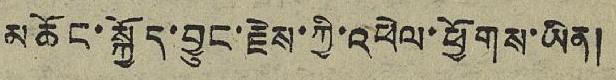མཆོང་སྐྱོད་བྱུང་རྗེས་ཀྱི་འཕེལ་ཕྱོགས་ཡིན།
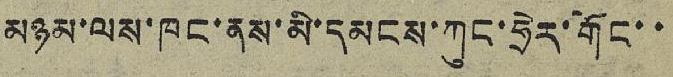མཉམ་ལས་ཁང་ནས་མི་དམངས་ཀུང་ཧྲེར་གོང་་
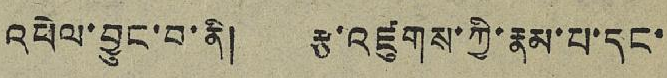འཕེལ་བྱུང་བ་ནི། རྩ་འཛུགས་ཀྱི་རྣམ་པ་དང་
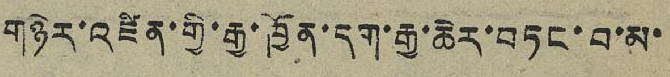གཉེར་འཛིན་གྱི་རྒྱ་ཁྱོན་དག་རྒྱ་ཆེར་བཏང་བ་མ་
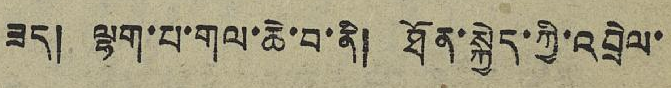ཟད། ལྷག་པ་གལ་ཆེ་བ་ནི། ཐོན་སྐྱེད་ཀྱི་འབྲེལ་
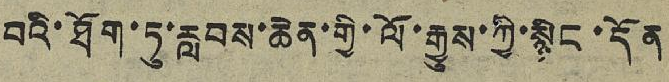བའི་ཐོག་ཏུ་རླབས་ཆེན་གྱི་ལོ་རྒྱུས་ཀྱི་སྙིང་དོན
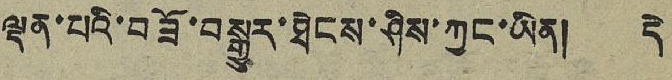ལྡན་པའི་བཟོ་བསྒྱུར་ཐེངས་ཤིས་ཀྱང་ཡིན། དེ
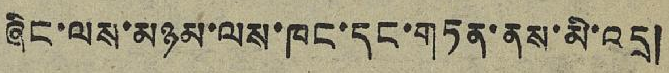ཞིང་ལས་མཉམ་ལས་ཁང་དང་གཏན་ནས་མི་འདྲ།
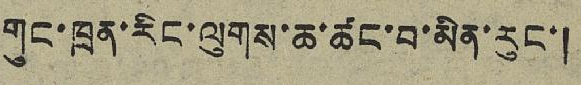གུང་ཁྲན་རིང་ལུགས་ཆ་ཚང་བ་མིན་རུང་།
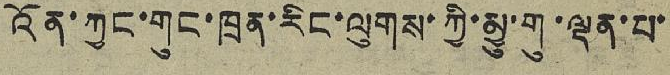འོན་ཀྱང་གུང་ཁྲན་རིང་ལུགས་ཀྱི་མྱུ་གུ་ལྡན་པ་
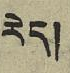རེད།
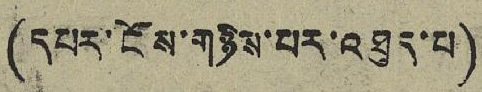(དཔར་ངོས་གཉིས་པར་འཐུད་པ)
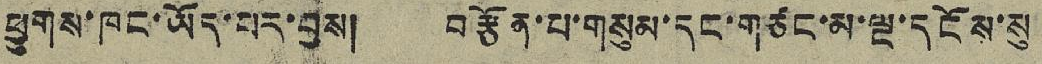ཕྱུགས་ཁང་ཡོད་པར་བྱས། བརྩོན་པ་གསུམ་དང་གཙང་མ་ལྔ་དངོས་སུ
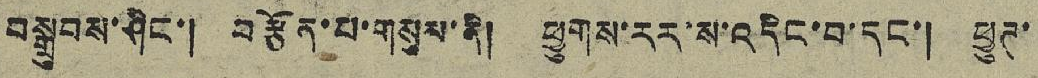བསྒྲུབས་ཤིང་། བརྩོན་པ་གསུམ་ནི། ཕྱུགས་རར་ས་འདིང་བ་དང་། ཕྱུཊ་
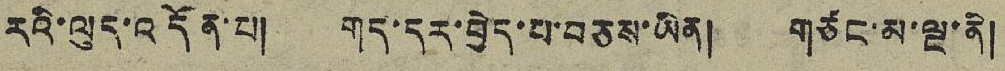རའི་ལུད་འདོན་པ། གད་དར་བྱེད་པ་བཅས་ཡིན། གཙང་མ་ལྔ་ནི།
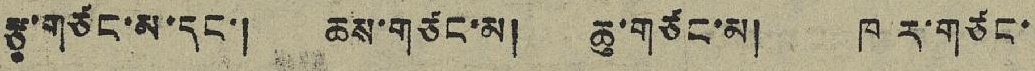རྩྭ་གཙང་མ་དང་། ཆས་གཙང་མ། ཆུ་གཙང་མ། ཁ་ར་གཙང་
